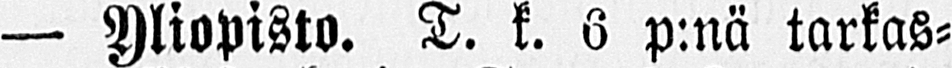— Yliopisto. T. k. 6 p:nä tarkas-
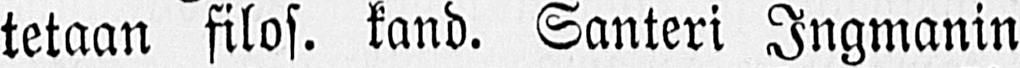tetaan filos. kand. Santeri Ingmanin
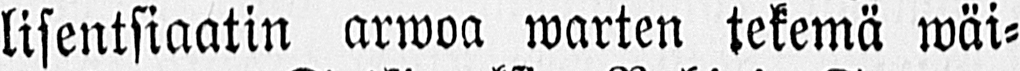lisensiaatin arwoa warten tekemä wäi-
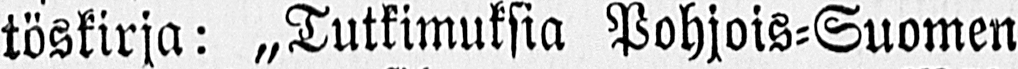töskirja: „Tutkimuksia Pohjois-Suomen
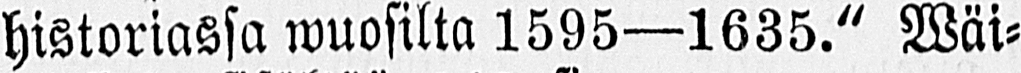historiassa wuosilta 1595 —1635." Wäi-
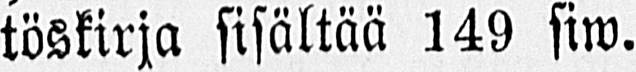töskirja sisältää 149 siw.
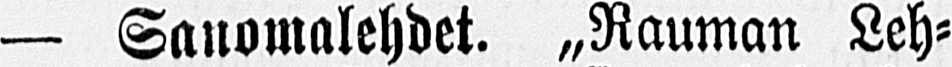— Sanomalehdet. „Rauman Leh-
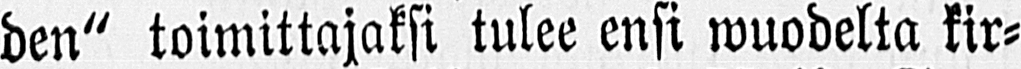den" toimittajaksi tulee ensi wuodelta kir-
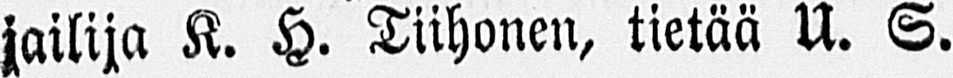jailija K. H. Tiihonen, tietää U. S.
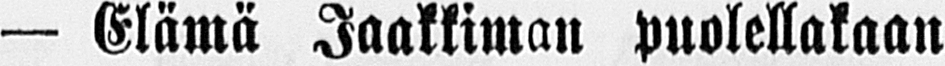— Elämä Jaakkiman puolellakaan
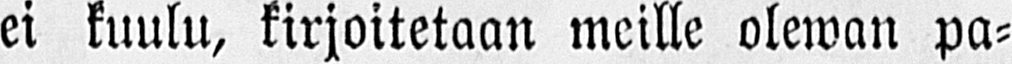ei kuulu, kirjoitetaan meille olewan pa-
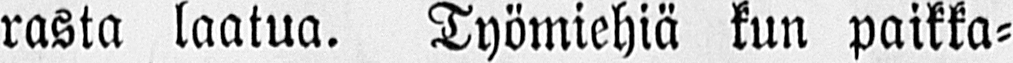rasta laatua. Työmiehiä kun paikka-
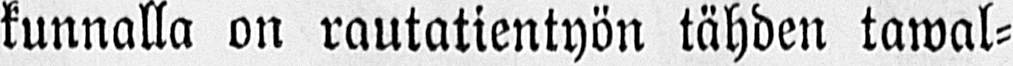kunnalla on rautatientyön tähden tawal-
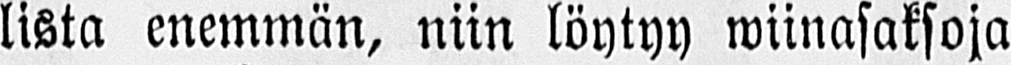lista enemmän, niin löytyy wiinasaksoja
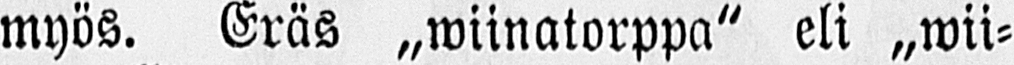myös. Eräs „wiinatorppa" eli „wii-
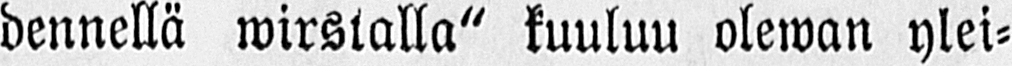dennellä wirstalla" kuuluu olewan ylei-
